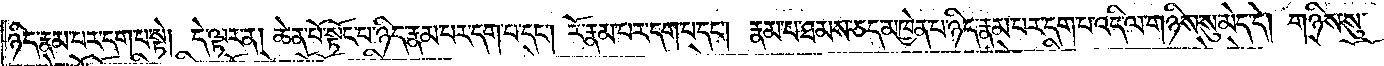ཉིད་རྣམ་པར་དག་པ་སྟེ། དེ་ལྟར་ན། ཆེན་པོ་སྟོང་པ་ཉིད་རྣམ་པར་དག་པ་དང༌། རོ་རྣམ་པར་དག་པ་དང༌། རྣམ་པ་ཐམས་ཅད་མཁྱེན་པ་ཉིད་རྣམ་པར་དག་པ་འདི་ལ་གཉིས་སུ་མེད་དེ། གཉིས་སུ་
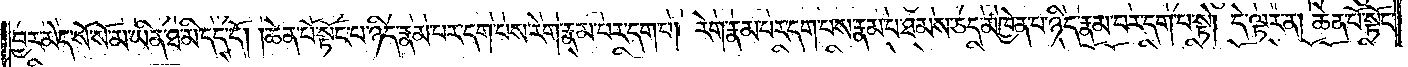བྱར་མེད་སོ་སོ་མ་ཡིན་ཐ་མི་དད་དོ། །ཆེན་པོ་སྟོང་པ་ཉིད་རྣམ་པར་དག་པས་རེག་རྣམ་པར་དག་པ། རེག་རྣམ་པར་དག་པས་རྣམ་པ་ཐམས་ཅད་མཁྱེན་པ་ཉིད་རྣམ་པར་དག་པ་སྟེ། དེ་ལྟར་ན། ཆེན་པོ་སྟོང་
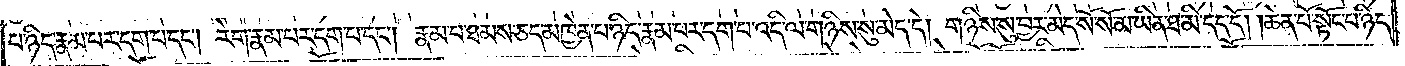པ་ཉིད་རྣམ་པར་དག་པ་དང༌། རེག་རྣམ་པར་དག་པ་དང༌། རྣམ་པ་ཐམས་ཅད་མཁྱེན་པ་ཉིད་རྣམ་པར་དག་པ་འདི་ལ་གཉིས་སུ་མེད་དེ། གཉིས་སུ་བྱར་མེད་སོ་སོ་མ་ཡིན་ཐ་མི་དད་དོ། །ཆེན་པོ་སྟོང་པ་ཉིད་
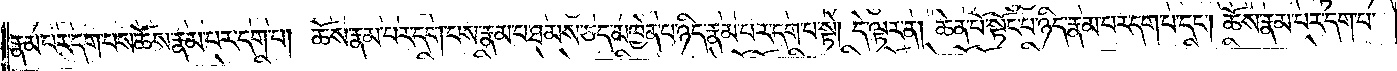རྣམ་པར་དག་པས་ཆོས་རྣམ་པར་དག་པ། ཆོས་རྣམ་པར་དག་པས་རྣམ་པ་ཐམས་ཅད་མཁྱེན་པ་ཉིད་རྣམ་པར་དག་པ་སྟེ། དེ་ལྟར་ན། ཆེན་པོ་སྟོང་པ་ཉིད་རྣམ་པར་དག་པ་དང༌། ཆོས་རྣམ་པར་དག་པ་
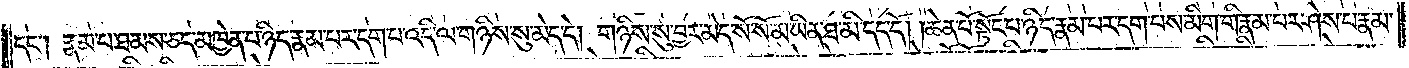དང༌། རྣམ་པ་ཐམས་ཅད་མཁྱེན་པ་ཉིད་རྣམ་པར་དག་པ་འདི་ལ་གཉིས་སུ་མེད་དེ། གཉིས་སུ་བྱར་མེད་སོ་སོ་མ་ཡིན་ཐ་མི་དད་དོ། །ཆེན་པོ་སྟོང་པ་ཉིད་རྣམ་པར་དག་པས་མིག་གི་རྣམ་པར་ཤེས་པ་རྣམ་
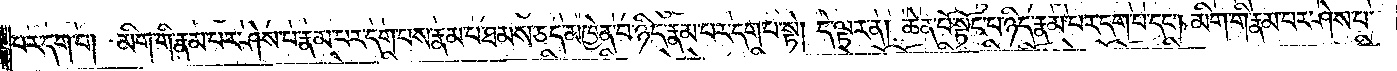པར་དག་པ། མིག་གི་རྣམ་པར་ཤེས་པ་རྣམ་པར་དག་པས་རྣམ་པ་ཐམས་ཅད་མཁྱེན་པ་ཉིད་རྣམ་པར་དག་པ་སྟེ། དེ་ལྟར་ན། ཆེན་པོ་སྟོང་པ་ཉིད་རྣམ་པར་དག་པ་དང༌། མིག་གི་རྣམ་པར་ཤེས་པ་
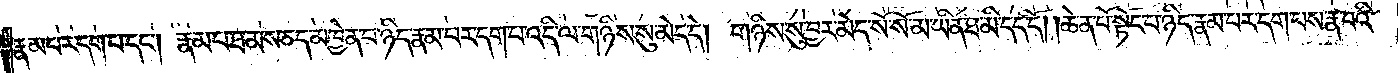རྣམ་པར་དག་པ་དང༌། རྣམ་པ་ཐམས་ཅད་མཁྱེན་པ་ཉིད་རྣམ་པར་དག་པ་འདི་ལ་གཉིས་སུ་མེད་དེ། གཉིས་སུ་བྱར་མེད་སོ་སོ་མ་ཡིན་ཐ་མི་དད་དོ། །ཆེན་པོ་སྟོང་པ་ཉིད་རྣམ་པར་དག་པས་རྣ་བའི་
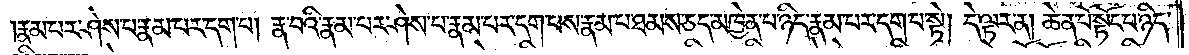རྣམ་པར་ཤེས་པ་རྣམ་པར་དག་པ། རྣ་བའི་རྣམ་པར་ཤེས་པ་རྣམ་པར་དག་པས་རྣམ་པ་ཐམས་ཅད་མཁྱེན་པ་ཉིད་རྣམ་པར་དག་པ་སྟེ། དེ་ལྟར་ན། ཆེན་པོ་སྟོང་པ་ཉིད་
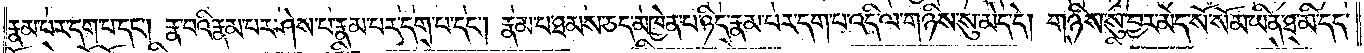རྣམ་པར་དག་པ་དང༌། རྣ་བའི་རྣམ་པར་ཤེས་པ་རྣམ་པར་དག་པ་དང༌། རྣམ་པ་ཐམས་ཅད་མཁྱེན་པ་ཉིད་རྣམ་པར་དག་པ་འདི་ལ་གཉིས་སུ་མེད་དེ། གཉིས་སུ་བྱར་མེད་སོ་སོ་མ་ཡིན་ཐ་མི་དད་
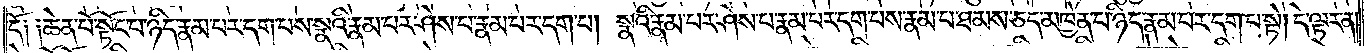དོ༑ ༑ཆེན་པོ་སྟོང་པ་ཉིད་རྣམ་པར་དག་པས་སྣའི་རྣམ་པར་ཤེས་པ་རྣམ་པར་དག་པ། སྣའི་རྣམ་པར་ཤེས་པ་རྣམ་པར་དག་པས་རྣམ་པ་ཐམས་ཅད་མཁྱེན་པ་ཉིད་རྣམ་པར་དག་པ་སྟེ། དེ་ལྟར་ན།
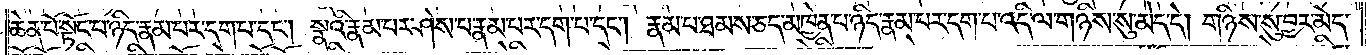ཆེན་པོ་སྟོང་པ་ཉིད་རྣམ་པར་དག་པ་དང༌། སྣའི་རྣམ་པར་ཤེས་པ་རྣམ་པར་དག་པ་དང༌། རྣམ་པ་ཐམས་ཅད་མཁྱེན་པ་ཉིད་རྣམ་པར་དག་པ་འདི་ལ་གཉིས་སུ་མེད་དེ། གཉིས་སུ་བྱར་མེད་
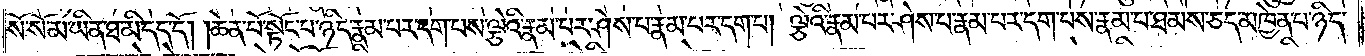སོ་སོ་མ་ཡིན་ཐ་མི་དད་དོ། །ཆེན་པོ་སྟོང་པ་ཉིད་རྣམ་པར་དག་པས་ལྕེའི་རྣམ་པར་ཤེས་པ་རྣམ་པར་དག་པ། ལྕེའི་རྣམ་པར་ཤེས་པ་རྣམ་པར་དག་པས་རྣམ་པ་ཐམས་ཅད་མཁྱེན་པ་ཉིད་
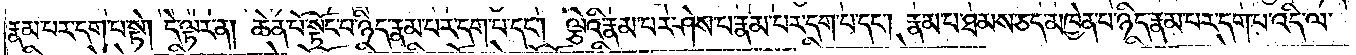རྣམ་པར་དག་པ་སྟེ། དེ་ལྟར་ན། ཆེན་པོ་སྟོང་པ་ཉིད་རྣམ་པར་དག་པ་དང༌། ལྕེའི་རྣམ་པར་ཤེས་པ་རྣམ་པར་དག་པ་དང༌། རྣམ་པ་ཐམས་ཅད་མཁྱེན་པ་ཉིད་རྣམ་པར་དག་པ་འདི་ལ་
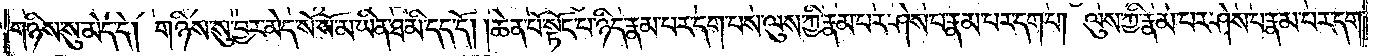གཉིས་སུ་མེད་དེ། གཉིས་སུ་བྱར་མེད་སོ་སོ་མ་ཡིན་ཐ་མི་དད་དོ། །ཆེན་པོ་སྟོང་པ་ཉིད་རྣམ་པར་དག་པས་ལུས་ཀྱི་རྣམ་པར་ཤེས་པ་རྣམ་པར་དག་པ། ལུས་ཀྱི་རྣམ་པར་ཤེས་པ་རྣམ་པར་དག་
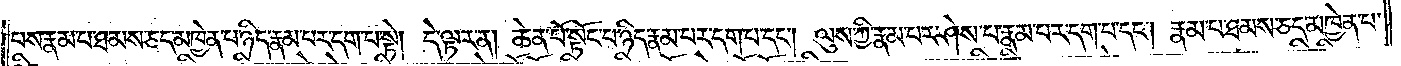པས་རྣམ་པ་ཐམས་ཅད་མཁྱེན་པ་ཉིད་རྣམ་པར་དག་པ་སྟེ། དེ་ལྟར་ན་ཆེན་པོ་སྟོང་པ་ཉིད་རྣམ་པར་དག་པ་དང༌། ལུས་ཀྱི་རྣམ་པར་ཤེས་པ་རྣམ་པར་དག་པ་དང༌། རྣམ་པ་ཐམས་ཅད་མཁྱེན་པ་
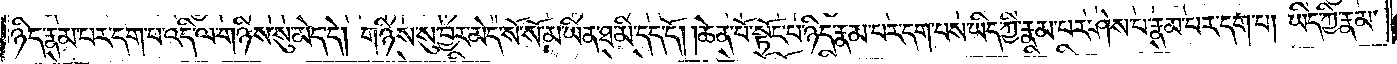ཉིད་རྣམ་པར་དག་པ་འདི་ལ་གཉིས་སུ་མེད་དེ། གཉིས་སུ་བྱར་མེད་སོ་སོ་མ་ཡིན་ཐ་མི་དད་དོ། །ཆེན་པོ་སྟོང་པ་ཉིད་རྣམ་པར་དག་པས་ཡིད་ཀྱི་རྣམ་པར་ཤེས་པ་རྣམ་པར་དག་པ། ཡིད་ཀྱི་རྣམ་
